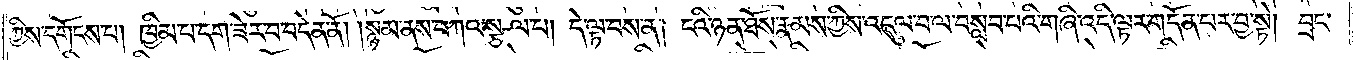ཀྱིས་དགོངས་པ། ཁྱིམ་པ་དག་ཟེར་བ་བདེན་ནོ། །སྙམ་ནས་བཀའ་སྩལ་པ། དེ་ལྟ་བས་ན། ངའི་ཉན་ཐོས་རྣམས་ཀྱིས་འདུལ་བ་ལ་བསླབ་པའི་གཞི་འདི་ལྟར་གདོན་པར་བྱ་སྟེ། བྲང་
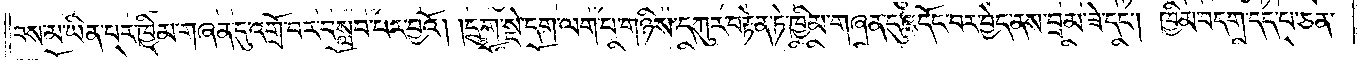བས་མ་ཡིན་པར་ཁྱིམ་གཞན་དུ་འགྲོ་བར་བསླབ་པར་བྱའོ། །དྲུག་སྡེ་དག་ལག་པ་གཉིས་དཀུར་བརྟེན་ཏེ་ཁྱིམ་གཞན་དུ་འདོང་བར་བྱེད་ནས་བྲམ་ཟེ་དང༌། ཁྱིམ་བདག་དད་པ་ཅན་
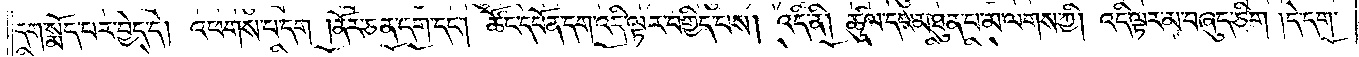དག་སྨོད་པར་བྱེད་དེ། འཕགས་པ་དག །ནོར་ཅན་དག་དང༌། ཚོང་དཔོན་དག་འདི་ལྟར་བགྱིད་པས། འདི་ནི། ཚུལ་དང་མཐུན་པ་མ་ལགས་ཀྱི། འདི་ལྟར་མ་བཞུད་ཅིག །དེ་དག་
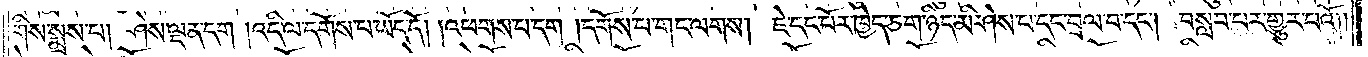གིས་སྨྲས་པ། ཤེས་ལྡན་དག །འདི་ལ་དགོས་པ་ཡོད་དོ། །འཕགས་པ་དག །དགོས་པ་གང་ལགས། ཇེ་དང་པོར་ཁྱེད་ཅག་ཉིད་མི་ཤེས་པ་དང་བྲལ་བ་དང༌། བསླབ་པར་གྱུར་པའོ། །
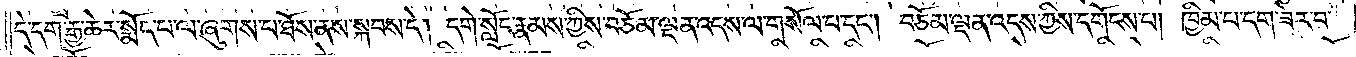དེ་དག་རྒྱ་ཆེར་སྨོད་པ་ལ་ཞུགས་པ་ཐོས་ནས་སྐབས་དེ། དགེ་སློང་རྣམས་ཀྱིས་བཅོམ་ལྡན་འདས་ལ་གསོལ་བ་དང༌། བཅོམ་ལྡན་འདས་ཀྱིས་དགོངས་པ། ཁྱིམ་པ་དག་ཟེར་བ་
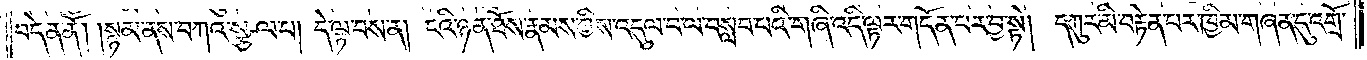བདེན་ནོ། །སྙམ་ནས་བཀའ་སྩལ་པ། དེ་ལྟ་བས་ན། ངའི་ཉན་ཐོས་རྣམས་ཀྱིས་འདུལ་བ་ལ་བསླབ་པའི་གཞི་འདི་ལྟར་གདོན་པར་བྱ་སྟེ། དཀུར་མི་བརྟེན་པར་ཁྱིམ་གཞན་དུ་འགྲོ་
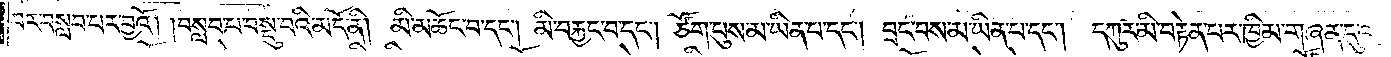པར་བསླབ་པར་བྱའོ། །བསླབ་པ་བསྡུ་བའི་མདོ་ནི། མི་མཆོང་བ་དང༌། མི་བརྐྱང་བ་དང༌། ཙོག་པུས་མ་ཡིན་པ་དང༌། བྲང་བས་མ་ཡིན་པ་དང༌། དཀུར་མི་བརྟེན་པར་ཁྱིམ་གཞན་དུ་འགྲོ་
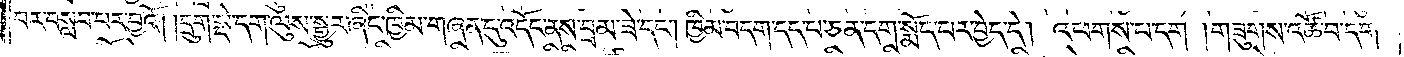བར་བསླབ་པར་བྱའོ། །དྲུག་སྡེ་དག་ལུས་སྒྱུར་ཞིང་ཁྱིམ་གཞན་དུ་འདོང་ནས་བྲམ་ཟེ་དང༌། ཁྱིམ་བདག་དད་པ་ཅན་དག་སྨོད་པར་བྱེད་དེ། འཕགས་པ་དག །གཟུགས་འཚོ་བ་དག་
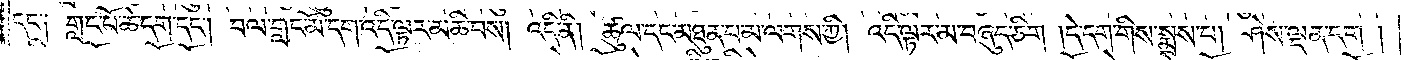དང་༑ གླང་པོ་ཆེ་དག་དང༌། བལ་གླང་མོ་དག་འདི་ལྟར་མཆི་བས། འདི་ནི། ཚུལ་དང་མཐུན་པ་མ་ལགས་ཀྱི། འདི་ལྟར་མ་བཞུད་ཅིག །དེ་དག་གིས་སྨྲས་པ། ཤེས་ལྡན་དག །
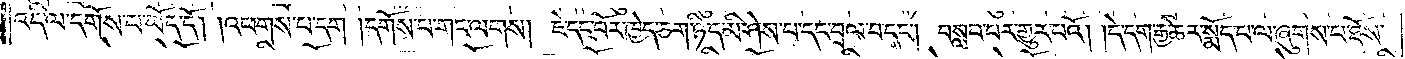འདི་ལ་དགོས་པ་ཡོད་དོ། །འཕགས་པ་དག །དགོས་པ་གང་ལགས། ཇེ་དང་པོར་ཁྱེད་ཅག་ཉིད་མི་ཤེས་པ་དང་བྲལ་བ་དང༌། བསླབ་པར་གྱུར་བའོ། །དེ་དག་རྒྱ་ཆེར་སྨོད་པ་ལ་ཞུགས་པ་ཐོས་
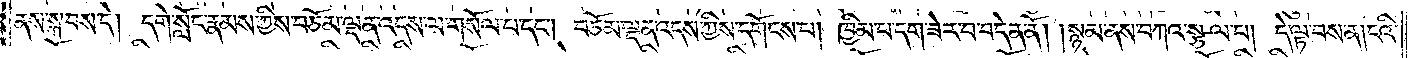ནས་སྐབས་དེ། དགེ་སློང་རྣམས་ཀྱིས་བཅོམ་ལྡན་འདས་ལ་གསོལ་བ་དང༌། བཅོམ་ལྡན་འདས་ཀྱིས་དགོངས་པ། ཁྱིམ་པ་དག་ཟེར་བ་བདེན་ནོ། །སྙམ་ནས་བཀའ་སྩལ་པ། དེ་ལྟ་བས་ན། ངའི་
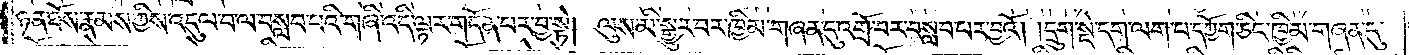ཉན་ཐོས་རྣམས་ཀྱིས་འདུལ་བ་ལ་བསླབ་པའི་གཞི་འདི་ལྟར་གདོན་པར་བྱ་སྟེ། ལུས་མི་སྒྱུར་བར་ཁྱིམ་གཞན་དུ་འགྲོ་བར་བསླབ་པར་བྱའོ། །དྲུག་སྡེ་དག་ལག་པ་དཀྱོག་ཅིང་ཁྱིམ་གཞན་དུ་
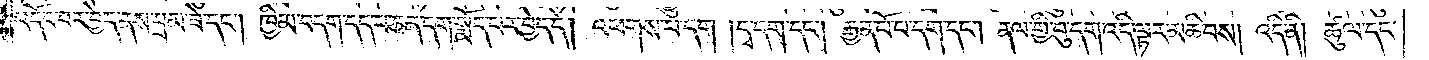འདོང་བར་བྱེད་ནས་བྲམ་ཟེ་དང༌། ཁྱིམ་བདག་དད་པ་ཅན་དག་སྨོད་པར་བྱེད་དོ། །འཕགས་པ་དག །དྭ་དག་དང༌། རྒྱན་པོ་པ་དག་དང༌། ནལ་གྱི་བུ་དག་འདི་ལྟར་མཆི་བས། འདི་ནི། ཚུལ་དང་
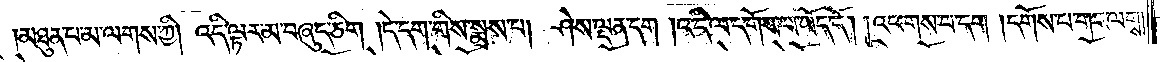མཐུན་པ་མ་ལགས་ཀྱི། འདི་ལྟར་མ་བཞུད་ཅིག །དེ་དག་གིས་སྨྲས་པ། ཤེས་ལྡན་དག །འདི་ལ་དགོས་པ་ཡོད་དོ། །འཕགས་པ་དག །དགོས་པ་གང་ལགས་
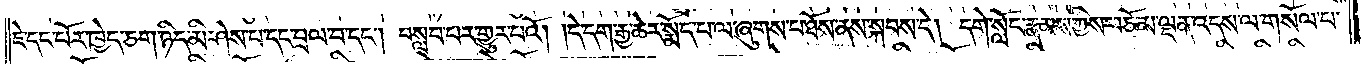ཇེ་དང་པོར་ཁྱེད་ཅག་ཉིད་མི་ཤེས་པ་དང་བྲལ་བ་དང༌། བསླབ་པར་གྱུར་བའོ། །དེ་དག་རྒྱ་ཆེར་སྨོད་པ་ལ་ཞུགས་པ་ཐོས་ནས་སྐབས་དེ། དགེ་སློང་རྣམས་ཀྱིས་བཅོམ་ལྡན་འདས་ལ་གསོལ་པ་
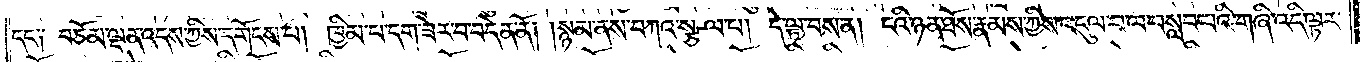དང་༑ བཅོམ་ལྡན་འདས་ཀྱིས་དགོངས་པ། ཁྱིམ་པ་དག་ཟེར་བ་བདེན་ནོ། །སྙམ་ནས་བཀའ་སྩལ་པ། དེ་ལྟ་བས་ན། ངའི་ཉན་ཐོས་རྣམས་ཀྱིས་འདུལ་བ་ལ་བསླབ་པའི་གཞི་འདི་ལྟར་
